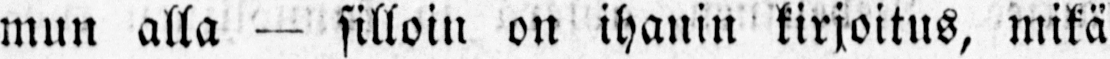mun alla — silloin on ihanin kirjoitus, mikä
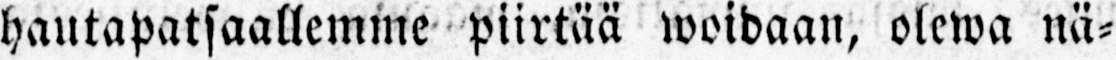hautapatsaallemme piirtää woidaan, olewa nä-
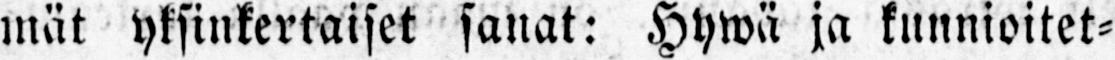mät yksinkertaiset sanat: Hywä ja kunnioitet-
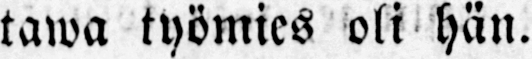tawa työmies oli hän.
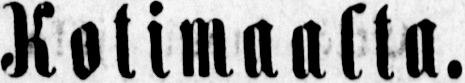Kolimaalta.
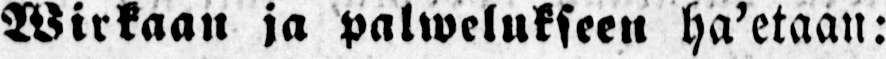Wirkaan ja palwelukseen ha'etaan:
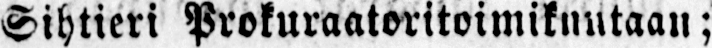Sihtieri Prokuraatoritoimiknntaan;
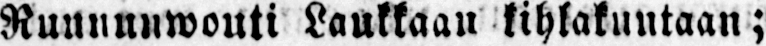Ruununwouti Laukkaan kihlakuntaan;
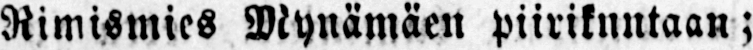Nimismies Mynämäen piirikuntaan ;
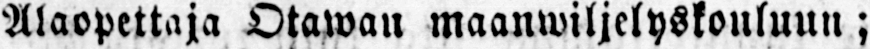Alaopettaja Otawan maanwiljelyskouluun;
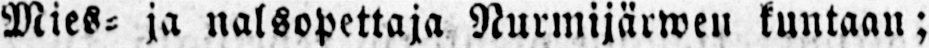Mies- ja nalsopettaja Nurmijärwen kuntaan;
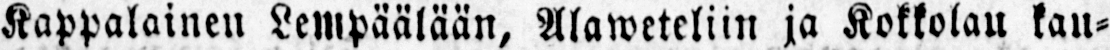Kappalainen Lempäälään, Alaweteliin ja Kokkolan kau-
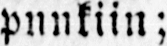punkiin;
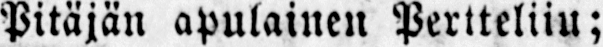Pitäjän apulainen Pertteliiu;
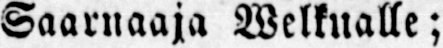Saarnaaja Welkualle;
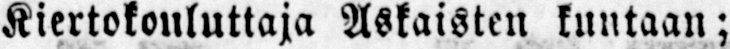Kiertokouluttaja Askaisten kuntaan;
